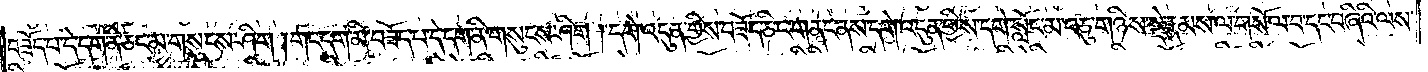བཟོད་པ་དེ་དག་ནི་ཅང་མ་གསུངས་ཤིག །གང་དག་མི་བཟོད་པ་དེ་དག་ནི་གསུངས་ཤིག །དགེ་འདུན་གྱིས་བཟོད་ཅིང་གནང་ནས་དགེ་འདུན་གྱིས་དགེ་སློང་མ་བཅུ་གཉིས་སྡེ་རྣམས་ལ་གསོལ་བ་དང་བཞིའི་ལས་
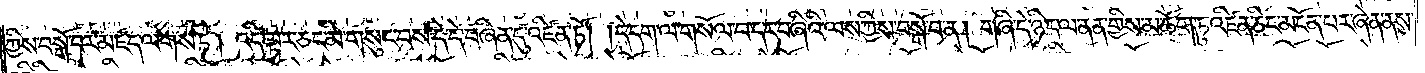ཀྱིས་བསྒོ་བར་མཛད་ལགས་ཏེ། འདི་ལྟར་ཅང་མི་གསུང་བས་དེ་དེ་བཞིན་དུ་འཛིན་ཏོ། །དེ་དག་ལ་གསོལ་བ་དང་བཞིའི་ལས་ཀྱིས་བསྒོ་བ་ན། གཞི་དེ་ཉིད་ལ་ནན་གྱིས་མཆོག་ཏུ་འཛིན་ཅིང་མངོན་པར་ཞེན་ནས་
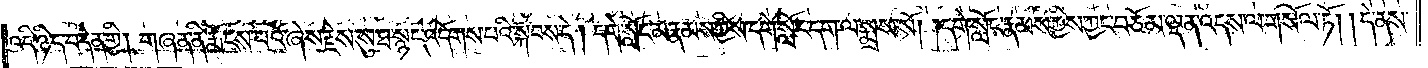འདི་ཉིད་བདེན་གྱི། གཞན་ནི་རྨོངས་པའོ་ཞེས་རྗེས་སུ་ཐ་སྙད་འདོགས་པའི་སྐབས་དེ། དགེ་སློང་མ་རྣམས་ཀྱིས་དགེ་སློང་དག་ལ་སྨྲས་སོ། །དགེ་སློང་རྣམས་ཀྱིས་ཀྱང་བཅོམ་ལྡན་འདས་ལ་གསོལ་ཏོ། །དེ་ནས་
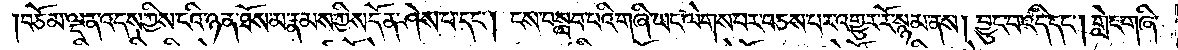བཅོམ་ལྡན་འདས་ཀྱིས་ངའི་ཉན་ཐོས་མ་རྣམས་ཀྱིས་དོན་ཤེས་པ་དང༌། ངས་བསླབ་པའི་གཞི་ཡང་ལེགས་པར་བཅས་པར་འགྱུར་རོ་སྙམ་ནས། བྱུང་བ་འདི་དང༌། གླེང་གཞི་
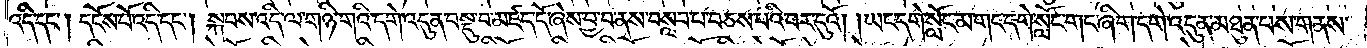འདི་དང༌། དངོས་པོ་འདི་དང༌། སྐབས་འདི་ལ་གཉི་གའི་དགེ་འདུན་བསྡུ་བ་མཛད་དོ་ཞེས་བྱ་བ་ནས་བསླབ་པ་བཅས་པའི་བར་དུའོ། །ཡང་དགེ་སློང་མ་གང་དགེ་སློང་གང་ཞིག་དགེ་འདུན་མཐུན་པས་གནས་
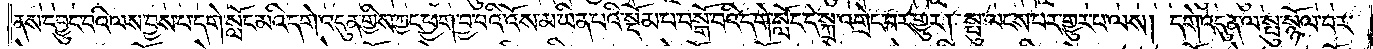ནས་དབྱུང་བའི་ལས་བྱས་པ་དགེ་སློང་མའི་དགེ་འདུན་གྱིས་ཀྱང་ཕྱག་བྱ་བའི་འོས་མ་ཡིན་པའི་སྡོམ་པ་བསྒོ་བའི་དགེ་སློང་དེ་སྐྲ་འགྲེང་བར་གྱུར། སྤུ་ལངས་པར་གྱུར་པ་ལས། དགེ་འདུན་ལ་སྤུ་སྙོལ་བར་
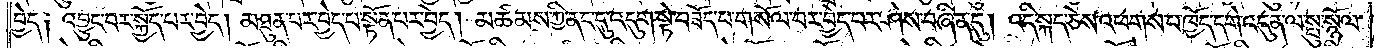བྱེད༑ འབྱུང་བར་སྐྱོད་པར་བྱེད། མཐུན་པར་བྱེད་པ་སྟོན་པར་བྱེད། མཚམས་ཀྱི་ནང་དུ་འདུག་སྟེ་བཟོད་པ་གསོལ་བར་བྱེད་པར་ཤེས་བཞིན་དུ། འདི་སྐད་ཅེས་འཕགས་པ་ཁྱོད་དགེ་འདུན་ལ་སྤུ་སྙོལ་
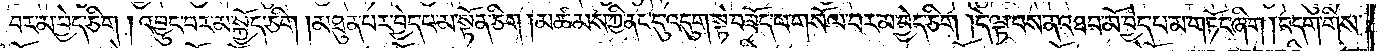བར་མ་བྱེད་ཅིག །འབྱུང་བར་མ་སྐྱོད་ཅིག །མཐུན་པར་བྱེད་པ་མ་སྟོན་ཅིག །མཚམས་ཀྱི་ནང་དུ་འདུག་སྟེ་བཟོད་པ་གསོལ་བར་མ་བྱེད་ཅིག། དེ་ལྟ་བས་ན་འཐབ་མོ་བྱེད་པ་མ་གཏོང་ཞིག །བདག་གིས་
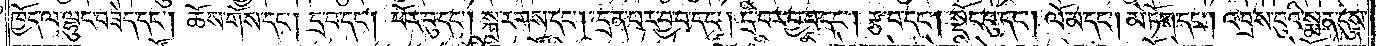ཁྱོད་ལ་ལྷུང་བཟེད་དང༌། ཆོས་གོས་དང༌། དྲ་བ་དང༌། ཕོར་བུ་དང༌། སྐ་རགས་དང༌། དྲན་པར་བྱ་བ་དང༌། དྲི་བར་བྱ་བ་དང༌། རྩ་བ་དང༌། སྡོང་བུ་དང༌། ལོ་མ་དང༌། མེ་ཏོག་དང༌། འབྲས་བུའི་སྨན་དུས་
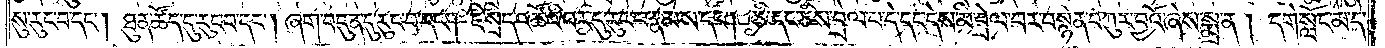སུ་རུང་བ་དང༌། ཐུན་ཚོད་དུ་རུང་བ་དང༌། ཞག་བདུན་དུ་རུང་བ་དང༌། ཇི་སྲིད་འཚོའི་བར་དུ་རུང་བ་རྣམས་དང༌། ཅི་དང་ཅིས་བྲེལ་བ་དེ་དང་དེས་མི་བྲེལ་བར་བསྙེན་བཀུར་བྱའོ་ཞེས་སྨྲ་ན། དགེ་སློང་མ་དེ་
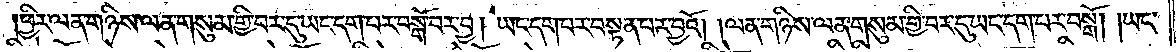ཕྱིར་ལན་གཉིས་ལན་གསུམ་གྱི་བར་དུ་ཡང་དག་པར་བསྒོ་བར་བྱ། ཡང་དག་པར་བསྟན་པར་བྱའོ། །ལན་གཉིས་ལན་གསུམ་གྱི་བར་དུ་ཡང་དག་པར་བསྒོ། །ཡང་
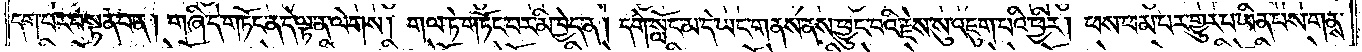དག་པར་བསྟན་པ་ན། གཞི་དེ་གཏོང་ན་དེ་ལྟ་ན་ལེགས། གལ་ཏེ་གཏོང་བར་མི་བྱེད་ན། དགེ་སློང་མ་དེ་ཡང་གནས་ནས་ཕྱུང་བའི་རྗེས་སུ་འཇུག་པའི་ཕྱིར། ཕས་ཕམ་པར་གྱུར་པ་ཡིན་པས་གནས་
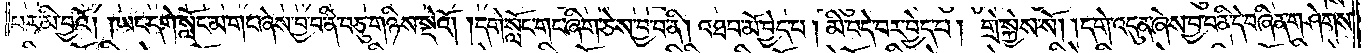པར་མི་བྱའོ། །ཡང་དགེ་སློང་མ་གང་ཞེས་བྱ་བ་ནི་བཅུ་གཉིས་སྡེའོ། །དགེ་སློང་གང་ཞིག་ཅེས་བྱ་བ་ནི། འཐབ་མོ་བྱེད་པ། མི་བདེ་བར་བྱེད་པ། གྲེ་སྐྱེས་སོ། །དགེ་འདུན་ཞེས་བྱ་བ་ནི་དེ་བཞིན་གཤེགས་
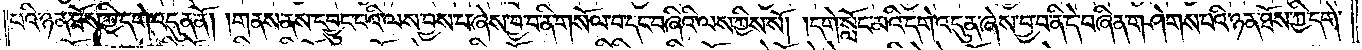པའི་ཉན་ཐོས་ཀྱི་དགེ་འདུན་ནོ། །གནས་ནས་དབྱུང་བའི་ལས་བྱས་པ་ཞེས་བྱ་བ་ནི་གསོལ་བ་དང་བཞིའི་ལས་ཀྱིས་སོ། །དགེ་སློང་མའི་དགེ་འདུན་ཞེས་བྱ་བ་ནི་དེ་བཞིན་གཤེགས་པའི་ཉན་ཐོས་ཀྱི་དགེ་
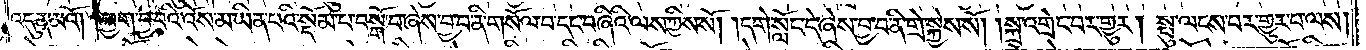འདུན་མའོ། །ཕྱག་བྱ་བའི་འོས་མ་ཡིན་པའི་སྡོམ་པ་བསྒོ་བ་ཞེས་བྱ་བ་ནི་གསོལ་བ་དང་བཞིའི་ལས་ཀྱིས་སོ། །དགེ་སློང་དེ་ཞེས་བྱ་བ་ནི་གྲེ་སྐྱེས་སོ། །སྐྲ་འགྲེང་བར་གྱུར། སྤུ་ལངས་པར་གྱུར་པ་ལས།
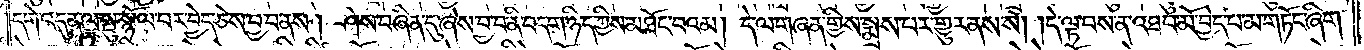དགེ་འདུན་ལ་སྤུ་སྙོལ་བར་བྱེད་ཅེས་བྱ་བ་ནས། ཤེས་བཞིན་དུ་ཞེས་བྱ་བ་ནི་བདག་ཉིད་ཀྱིས་མཐོང་བའམ། དེ་ལ་གཞན་གྱིས་སྨྲས་པར་གྱུར་ནས་སོ། །དེ་ལྟ་བས་ན་འཐབ་མོ་བྱེད་པ་མ་གཏོང་ཞིག་
